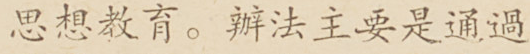思想教育。辦法主要是通過
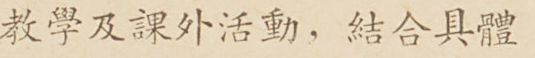教學及課外活動，結合具體
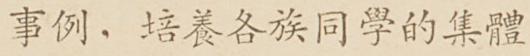事例，培養各族同學的集體
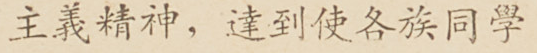主義精神，達到使各族同學
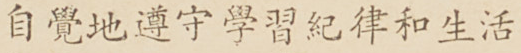自覺地遵守學習紀律和生活
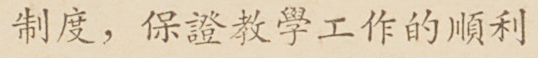制度，保證教學工作的順利
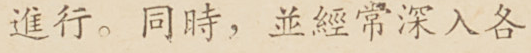進行。同時，並經常深入各
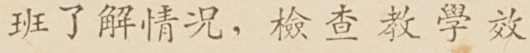班了解情況，檢查教學效
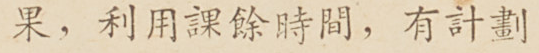果，利用課餘時間，有計劃
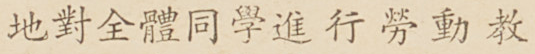地對全體同學進行勞動教
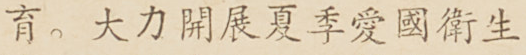育。大力開展夏季愛國衛生
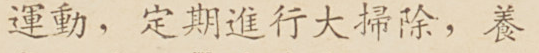運動，定期進行大掃除，養
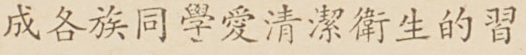成各族同學愛清潔衛生的習
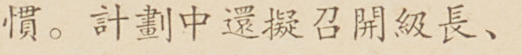慣。計劃中還擬召開級長、
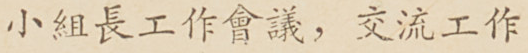小組長工作會議，交流工作
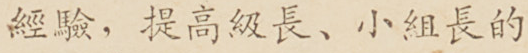經驗，提高級長、小組長的
